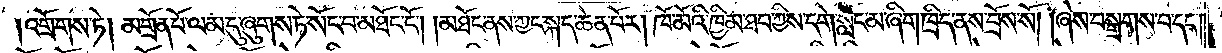འགྲོགས་ཏེ། མགྲོན་པོ་ལམ་དུ་ཞུགས་ཏེ་སོང་བ་མཐོང་ངོ༌། །མཐོང་ནས་ཀྱང་སྐད་ཆེན་པོར། ཁོ་མོའི་ཁྱིམ་ཐབ་ཀྱིས་དགེ་སློང་མ་ཞིག་ཁྲིད་ནས་བྲོས་སོ། །ཞེས་བསྒྲགས་པ་དང༌།
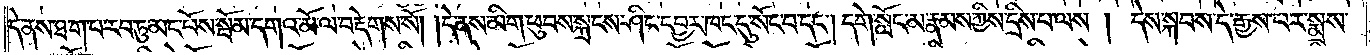དེ་ནས་ཐ་ག་པ་རབ་ཏུ་ཡང་པོས་སྦོམ་དགའ་མོ་ལ་བརྡེགས་སོ། །དེ་ནས་མིག་ཕུབས་སྐྲངས་ཤིང་དབྱར་ཁང་དུ་སོང་བ་དང༌། དགེ་སློང་མ་རྣམས་ཀྱིས་དྲིས་པ་ལས། དེས་སྐབས་དེ་རྒྱས་པར་སྨྲས་
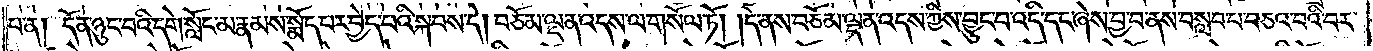པ་ན། དོན་ཉུང་བའི་དགེ་སློང་མ་རྣམས་སྨོད་པར་བྱེད་པའི་སྐབས་དེ། བཅོམ་ལྡན་འདས་ལ་གསོལ་ཏོ། །དེ་ནས་བཅོམ་ལྡན་འདས་ཀྱིས་བྱུང་བ་འདི་དང་ཞེས་བྱ་བ་ནས་བསླབ་པ་བཅའ་བའི་བར་
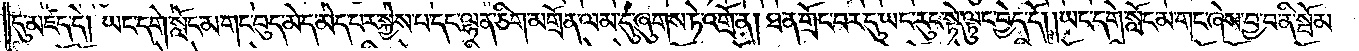དུ་མཛད་དེ། ཡང་དགེ་སློང་མ་གང་བུད་མེད་མེད་པར་སྐྱེས་པ་དང་ལྷན་ཅིག་མགྲོན་ལམ་དུ་ཞུགས་ཏེ་འགྲོ་ན། ཐ་ན་གྲོང་བར་དུ་ཡང་རུང་སྟེ་ལྟུང་བྱེད་དོ། །ཡང་དགེ་སློང་མ་གང་ཞེས་བྱ་བ་ནི་སྦོམ་
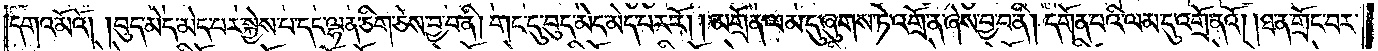དགའ་མོའོ། །བུད་མེད་མེད་པར་སྐྱེས་པ་དང་ལྷན་ཅིག་ཅེས་བྱ་བ་ནི། གང་དུ་བུད་མེད་མེད་པར་རོ། །མགྲོན་ལམ་དུ་ཞུགས་ཏེ་འགྲོ་ན་ཞེས་བྱ་བ་ནི། དགོན་པའི་ལམ་དུ་འགྲོ་ནའོ། །ཐ་ན་གྲོང་བར་
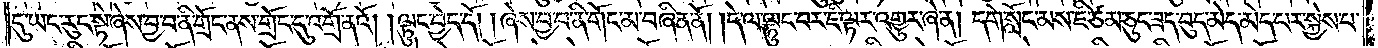དུ་ཡང་རུང་སྟེ་ཞེས་བྱ་བ་ནི་གྲོང་ནས་གྲོང་དུ་འགྲོ་ནའོ། །ལྟུང་བྱེད་དོ། །ཞེས་བྱ་བ་ནི་གོང་མ་བཞིན་ནོ། །དེ་ལ་ལྟུང་བར་ཇི་ལྟར་འགྱུར་ཞེ་ན། དགེ་སློང་མས་ཇི་ཙམ་ཅུང་ཟད་བུད་མེད་མེད་པར་སྐྱེས་པ་
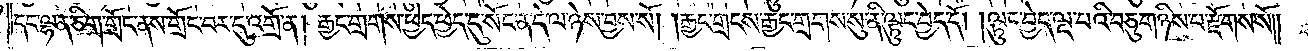དང་ལྷན་ཅིག་གྲོང་ནས་གྲོང་བར་དུ་འགྲོ་ན། རྒྱང་གྲགས་ཕྱེད་ཕྱེད་དུ་སོང་ན་དེ་ལ་ཉེས་བྱས་སོ། །རྒྱང་གྲངས་རྒྱང་གྲགས་སུ་ནི་ལྟུང་བྱེད་དོ། །ལྟུང་བྱེད་ལྔ་པའི་བཅུ་གཉིས་པ་རྫོགས་སོ༎
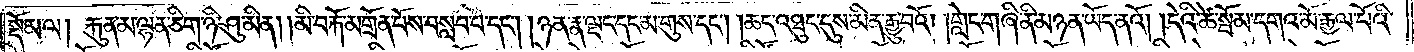སྡོམ་ལ། རྐུན་མ་ལྷན་ཅིག་ཉི་ཤུ་མིན། །མི་བརྐོ་མགྲོན་པོས་བསླབ་པ་དང༌། །ཉན་རྣ་ལྡང་དང་མ་གུས་དང༌། །ཆང་འཐུང་དུས་མིན་རྒྱུ་བའོ། །གླེང་གཞི་ནི་མཉན་ཡོད་ནའོ། །དེའི་ཚེ་སྦོམ་དགའ་མོ་རྒྱལ་པོའི་
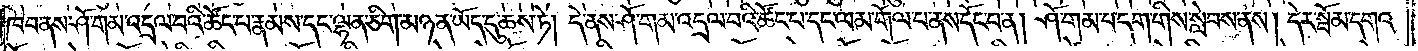ཁབ་ནས་ཤོ་གམ་འདྲལ་བའི་ཚོང་པ་རྣམས་དང་ལྷན་ཅིག་མཉན་ཡོད་དུ་ཆས་ཏེ། དེ་ནས་ཤོ་གམ་འདྲལ་བའི་ཚོང་པ་དང་ལམ་གོལ་པ་ནས་དོང་བ་ན། ཤོ་གམ་པ་དག་གིས་སླེབས་ནས། དེར་སྦོམ་དགའ་
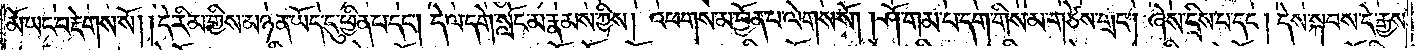མོ་ཡང་བརྡེགས་སོ། །དེ་རིམ་གྱིས་མཉན་ཡོད་དུ་ཕྱིན་པ་དང༌། དེ་ལ་དགེ་སློང་མ་རྣམས་ཀྱིས། འཕགས་མ་བྱོན་པ་ལེགས་སོ། །ཤོ་གམ་པ་དག་གིས་མ་གཙེས་གྲང༌། ཞེས་དྲིས་པ་དང༌། དེས་སྐབས་དེ་རྒྱས་
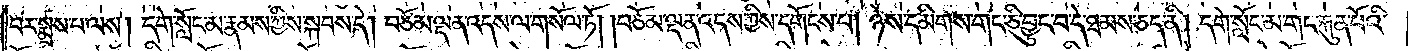པར་སྨྲས་པ་ལས། དགེ་སློང་མ་རྣམས་ཀྱིས་སྐབས་དེ། བཅོམ་ལྡན་འདས་ལ་གསོལ་ཏོ། །བཅོམ་ལྡན་འདས་ཀྱིས་དགོངས་པ། ཉེས་དམིགས་གང་ཅི་བྱུང་བ་དེ་ཐམས་ཅད་ནི། དགེ་སློང་མ་གང་རྐུན་པོའི་
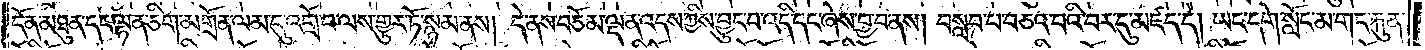དོན་མཐུན་དང་ལྷན་ཅིག་མགྲོན་ལམ་དུ་འགྲོ་བ་ལས་གྱུར་ཏོ་སྙམ་ནས། དེ་ནས་བཅོམ་ལྡན་འདས་ཀྱིས་བྱུང་བ་འདི་དང་ཞེས་བྱ་བ་ནས། བསླབ་པ་བཅའ་བའི་བར་དུ་མཛད་དེ། ཡང་དགེ་སློང་མ་གང་རྐུན་
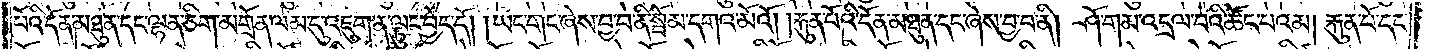པོའི་དོན་མཐུན་དང་ལྷན་ཅིག་མགྲོན་ལམ་དུ་འཇུག་ན་ལྟུང་བྱེད་དོ། །ཡང་གང་ཞེས་བྱ་བ་ནི་སྦོམ་དགའ་མོའོ། །རྐུན་པོའི་དོན་མཐུན་དང་ཞེས་བྱ་བ་ནི། ཤོ་གམ་འདྲལ་བའི་ཚོང་པའམ། རྐུན་པོ་དང་
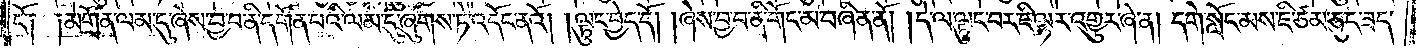ངོ༌། །མགྲོན་ལམ་དུ་ཞེས་བྱ་བ་ནི་དགོན་པའི་ལམ་དུ་ཞུགས་ཏེ་འདོང་ནའོ། །ལྟུང་བྱེད་དོ། །ཞེས་བྱ་བ་ནི་གོང་མ་བཞིན་ནོ། །དེ་ལ་ལྟུང་བར་ཇི་ལྟར་འགྱུར་ཞེ་ན། དགེ་སློང་མས་ཇི་ཙམ་ཅུང་ཟད་
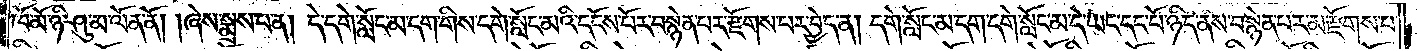ཁོ་མོ་ཉི་ཤུ་མ་ལོན་ནོ། །ཞེས་སྨྲས་པ་ན། དེ་དགེ་སློང་མ་དག་གིས་དགེ་སློང་མའི་དངོས་པོར་བསྙེན་པར་རྫོགས་པར་བྱེད་ན། དགེ་སློང་མ་དག་དགེ་སློང་མ་དེ་ཡང་དང་པོ་ཉིད་ནས་བསྙེན་པར་མ་རྫོགས་པ་
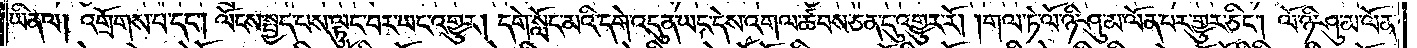ཡིན་ལ། འགྲོགས་པ་དང༌། ལོངས་སྤྱད་པས་ལྟུང་བར་ཡང་འགྱུར། དགེ་སློང་མའི་དགེ་འདུན་ཡང་དེས་འགལ་ཚབས་ཅན་དུ་འགྱུར་རོ། །གལ་ཏེ་ལོ་ཉི་ཤུ་མ་ལོན་པར་གྱུར་ཅིང༌། ལོ་ཉི་ཤུ་མ་ལོན་
